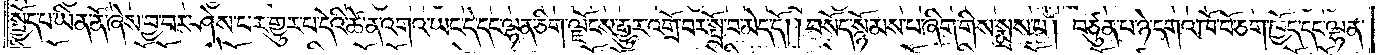སྤྱོད་པ་ཡིན་ནོ་ཞེས་བྱ་བར་ཤེས་པར་གྱུར་པ་དེའི་ཚེ་ན་འགའ་ཡང་དེ་དང་ལྷན་ཅིག་ལྗོངས་རྒྱུར་འགྲོ་བར་སྤྲོ་བ་མེད་དོ། །བསོད་སྙོམས་པ་ཞིག་གིས་སྨྲས་པ། བཙུན་པ་ཉེ་དགའ་ཁོ་བོ་ཅག་ཁྱོད་དང་ལྷན་
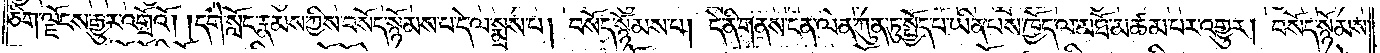ཅིག་ལྗོངས་རྒྱུར་འགྲོའོ། །དགེ་སློང་རྣམས་ཀྱིས་བསོད་སྙོམས་པ་དེ་ལ་སྨྲས་པ། བསོད་སྙོམས་པ། དེ་ནི་གནས་ངན་ལེན་ཀུན་ཏུ་སྤྱོད་པ་ཡིན་པས་ཁྱོད་ལ་མཐོ་མཚམ་པར་འགྱུར། བསོད་སྙོམས་
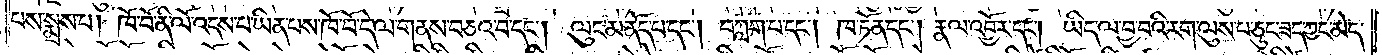པས་སྨྲས་པ། ཁོ་བོ་ནི་ལོ་འདས་པ་ཡིན་པས་ཁོ་བོ་དེ་ལ་གནས་བཅའ་བ་དང༌། ལུང་མནོད་པ་དང༌། བཀླག་པ་དང༌། ཁ་ཏོན་དང༌། རྣལ་འབྱོར་དང༌། ཡིད་ལ་བྱ་བའི་རག་ལུས་པ་ཅུང་ཟད་ཀྱང་མེད་
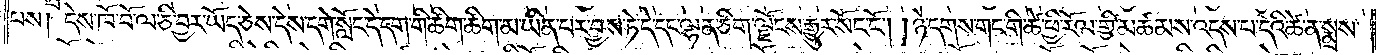པས། དེས་ཁོ་བོ་ལ་ཅི་བྱར་ཡོད་ཅེས་དེས་དགེ་སློང་དེ་དག་གི་ཚིག་ཚིག་མ་ཡིན་པར་བྱས་ཏེ་དེ་དང་ལྷན་ཅིག་ལྗོངས་རྒྱུར་སོང་ངོ༌། །ཉེ་དགས་གང་གི་ཚེ་ཕྱི་རོལ་གྱི་མཚམས་འདས་པ་དེའི་ཚེ་ན་སྨྲས་
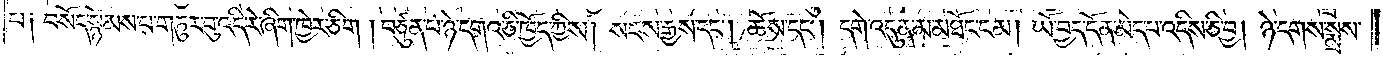པ༑ བསོད་སྙོམས་པ་གཏུར་བུ་འདི་རེ་ཞིག་ཁྱེར་ཅིག །བཙུན་པ་ཉེ་དགའ་ཅི་ཁྱོད་ཀྱིས། སངས་རྒྱས་དང༌། ཆོས་དང༌། དགེ་འདུན་མ་མཐོང་ངམ། ཡོ་བྱད་དོན་མེད་པ་འདིས་ཅི་བྱ། ཉེ་དགས་སྨྲས་
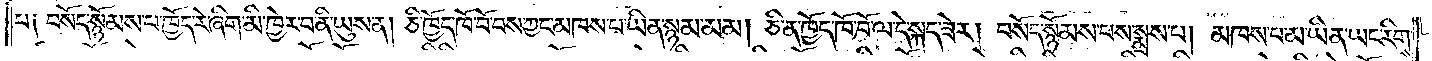པ༑ བསོད་སྙོམས་པ་ཁྱོད་རེ་ཞིག་མི་ཁྱེར་བ་ནི་ཡུས་ན། ཅི་ཁྱོད་ཁོ་བོ་བས་ཀྱང་མཁས་པ་ཡིན་སྙམ་མམ། ཅི་ན་ཁྱོད་ཁོ་བོ་ལ་དེ་སྐད་ཟེར། བསོད་སྙོམས་པས་སྨྲས་པ། མཁས་པ་མ་ཡིན་ཡང་རིགས་
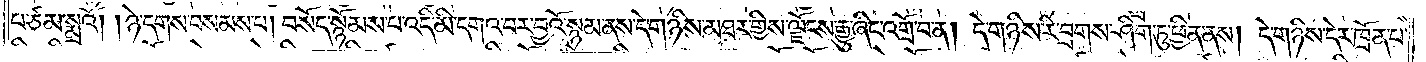པ་ཙམ་སྨྲའོ། །ཉེ་དགས་བསམས་པ། བསོད་སྙོམས་པ་འདི་མི་དགའ་བར་བྱའོ་སྙམ་ནས་དེ་གཉིས་མཐར་གྱིས་ལྗོངས་རྒྱུ་ཞིང་འགྲོ་བ་ན། དེ་གཉིས་རི་བྲགས་ཤིག་ཏུ་ཕྱིན་ནས། དེ་གཉིས་དེར་ཁྲོན་པ་
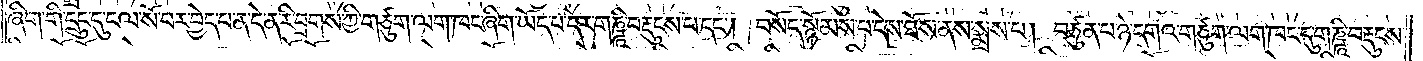ཞིག་གི་དྲུང་དུ་ངལ་སོ་བར་བྱེད་པ་ན་དེ་ན་རི་བྲགས་ཀྱི་གཙུག་ལག་ཁང་ཞིག་ཡོད་པ་དེར་གཎྜཱི་བརྡུངས་པ་དང༌། བསོད་སྙོམས་པ་དེས་ཐོས་ནས་སྨྲས་པ། བཙུན་པ་ཉེ་དགའ་གཙུག་ལག་ཁང་དུ་གཎྜཱི་བརྡུངས་
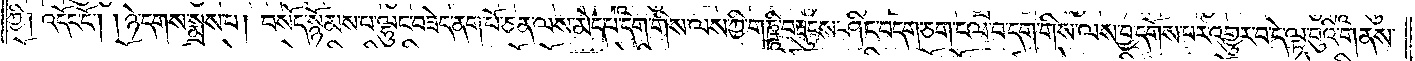ཀྱི། འདོང་ངོ༌། །ཉེ་དགས་སྨྲས་པ། བསོད་སྙོམས་པ་ལྷུང་བཟེད་ནག་པོ་ཅན་ལས་མེད་པ་དག་གིས་ལས་ཀྱི་གཎྜཱི་བརྡུངས་ཤིང་བདག་ཅག་ངལ་བ་དག་གིས་ལས་བྱ་དགོས་པར་འགྱུར་བ་དེ་ལྟ་བུའི་གནས་
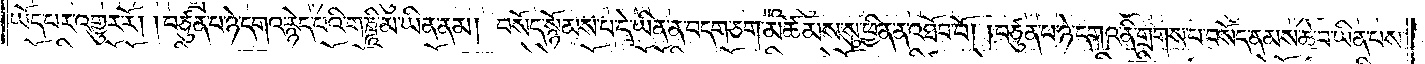ཡོད་པར་འགྱུར་རོ། །བཙུན་པ་ཉེ་དགའ་རྙེད་པའི་གཎྜཱི་མ་ཡིན་ནམ། བསོད་སྙོམས་པ་དེ་ཡིན་ན་བདག་ཅག་མཚམས་སུ་ཕྱིན་ན་འཐོབ་བོ། །བཙུན་པ་ཉེ་དགའ་ནི་གྲགས་པ་བསོད་ནམས་ཆེ་བ་ཡིན་པས་
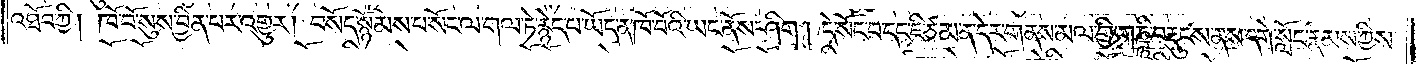འཐོབ་ཀྱི། ཁོ་བོས་སུས་བྱིན་པར་འགྱུར། བསོད་སྙོམས་པ་སོང་ལ་གལ་ཏེ་རྙེད་པ་ཡོད་ན་ཁོ་བོའི་ཡང་ནོས་ཤིག །དེ་སོང་བ་དང་ཇི་ཙམ་ན་དེར་གནས་མལ་གྱི་གཎྜཱི་བརྡུངས་ནས་དགེ་སློང་རྣམས་ཀྱིས་
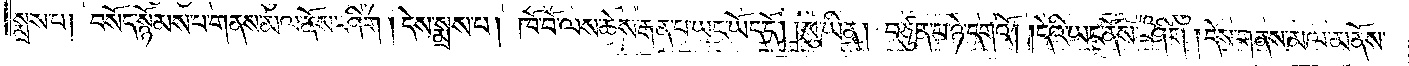སྨྲས་པ། བསོད་སྙོམས་པ་གནས་མལ་ནོས་ཤིག །དེས་སྨྲས་པས། ཁོ་བོ་ལས་ཆེས་རྒན་པ་ཡང་ཡོད་དོ། །སུ་ཡིན། བཙུན་པ་ཉེ་དགའོ། །དེའི་ཡང་ནོས་ཤིག །དེས་གནས་མལ་མནོས་
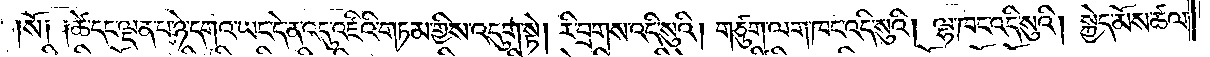སོ༑ ༑ཚེ་དང་ལྡན་པ་ཉེ་དགའ་ཡང་དེ་ན་འདུ་འཛིའི་གཏམ་གྱིས་འདུག་སྟེ། རི་བྲགས་འདི་སུའི། གཙུག་ལག་ཁང་འདི་སུའི། ལྷ་ཁང་འདི་སུའི། སྐྱེད་མོས་ཚལ་
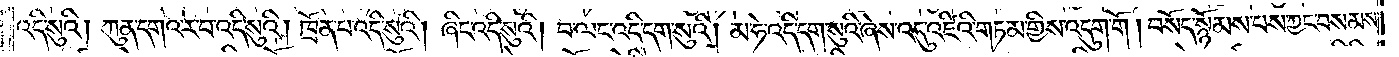འདི་སུའི། ཀུན་དགའ་ར་བ་འདི་སུའི། ཁྲོན་པ་འདི་སུའི། ཞིང་འདི་སུའི། བ་ལང་འདི་དག་སུའི། མ་ཧེ་འདི་དག་སུའི་ཞེས་འདུ་འཛིའི་གཏམ་གྱིས་འདུག་གོ། བསོད་སྙོམས་པས་ཀྱང་བསམས་
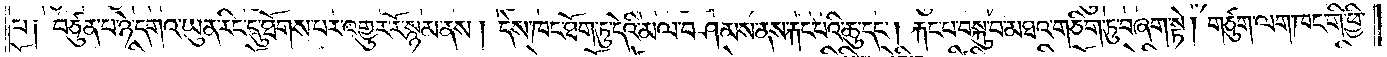པ༑ བཙུན་པ་ཉེ་དགའ་ཡུན་རིང་དུ་ཐོགས་པར་འགྱུར་རོ་སྙམ་ནས། དེས་ཁང་ཐོག་ཏུ་དེའི་མལ་བཤམས་ནས་རྐང་པའི་ཆུ་དང༌། རྐང་པ་བསྐུ་བ་མཐའ་གཅིག་ཏུ་བཞག་སྟེ། གཙུག་ལག་ཁང་གི་ཕྱི་
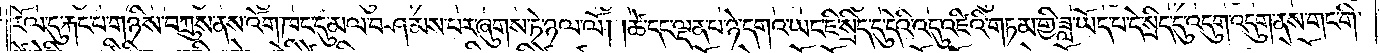རོལ་དུ་རྐང་པ་གཉིས་བཀྲུས་ནས་འོག་ཁང་དུ་མལ་བཤམས་པར་ཞུགས་ཏེ་ཉལ་ལོ། །ཚེ་དང་ལྡན་པ་ཉེ་དགའ་ཡང་ཇི་སྲིད་དུ་དེའི་འདུ་འཛིའི་གཏམ་གྱི་ཟླ་ཡོད་པ་དེ་སྲིད་དུ་འདུག་འདུག་ནས་གང་གི་
